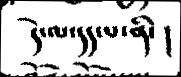དེ་ལ་དད་པ་ནི་ །
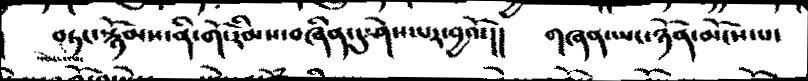བཏང་སྙོམས་ནི་གོ་རིམས་བཞིན་དུ་ཤེས་པར་བྱའོ་།།     གཞན་ཡང་ཉོན་མོངས་པ་
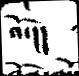འོ་།།
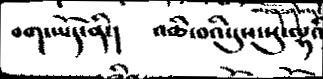བག་ཡོད་ནི་།  འཆི་བའི་དུས་སུ་ལྷའི
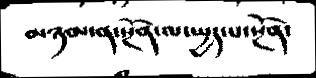མཉམ་ན་སྔོན་ལ་སྤྱད་པ་སྔོན་
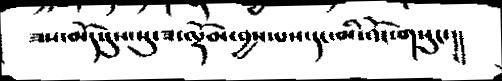ཟས་མོད་དུས་སུ་ཟ་ལྡོམ་བྱས་པས་དང་མི་འོང་གསུང་།།
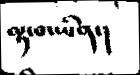ལྟ་བ་ཡིན་།
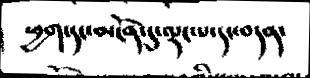ཕྱག་དང་མངོན་དུ་ལྡང་པ་དང་བདན་
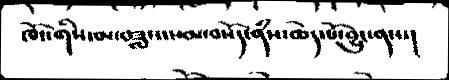ཁོང་གིས་མ་བཟླས་སམ་བསོད་ནཾས་ཆེད་པོ་བྱུང་ནས་།
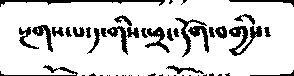སྔྒས་པ་༡གིས་ཕྲང་དོག་བགྱིས་
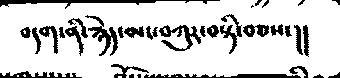བདག་ནི་རྙེད་མང་བཀུར་བསྟི་བཅས་།།
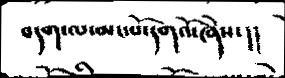བདག་ལ་མང་པོ་དོགའོ་ཞེས་།།
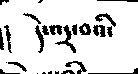དེ་འདྲ་བའི་
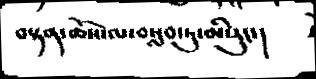བསྟན་ཆོས་ལ་བསླབ་ཏུ་མི་རུང་།
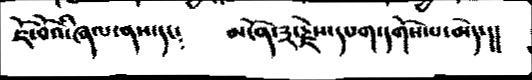ཇོ་བོའི་ཞལ་ནས་དང༴    མངོན་༣་རྗེས་དཔག་དགོས་པ་མེད་།།
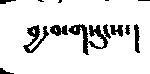བྱ་བ་གསུངས་།
